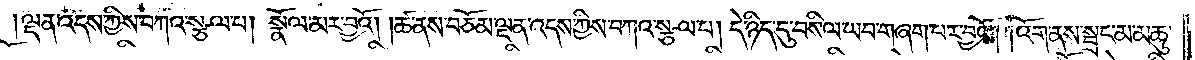ལྡན་འདས་ཀྱིས་བཀའ་སྩལ་པ། སྣོལ་མར་བྱའོ། །ཆ་ནས་བཅོམ་ལྡན་འདས་ཀྱིས་བཀའ་སྩལ་པ། དེ་ཉིད་དུ་བསིལ་ཡབ་གཞག་པར་བྱའོ། །འོག་ནས་སྦྲང་མ་མཆུ་
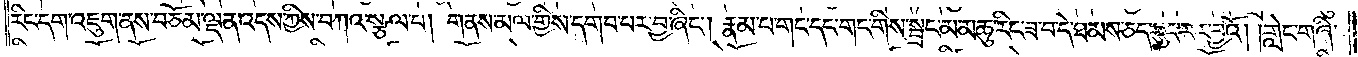རིང་དག་འཇུག་ནས་བཅོམ་ལྡན་འདས་ཀྱིས་བཀའ་སྩལ་པ། གནས་མལ་གྱིས་དགབ་པར་བྱ་ཞིང༌། རྣམ་པ་གང་དང་གང་གིས་སྦྲང་མ་མཆུ་རིང་ཟ་བ་དེ་ཐམས་ཅད་རུང་བར་བྱའོ། །གླེང་གཞི་
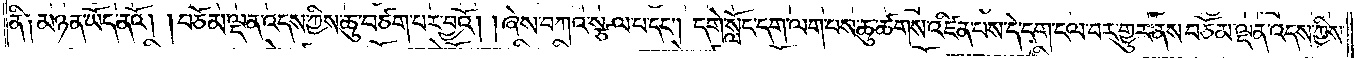ནི༑ མཉན་ཡོད་ནའོ། །བཅོམ་ལྡན་འདས་ཀྱིས་ཆུ་བཙག་པར་བྱའོ། །ཞེས་བཀའ་སྩལ་པ་དང༌། དགེ་སློང་དག་ལག་པས་ཆུ་ཚགས་འཛིན་པས་དེ་དག་ངལ་བར་གྱུར་ནས་བཅོམ་ལྡན་འདས་ཀྱིས་
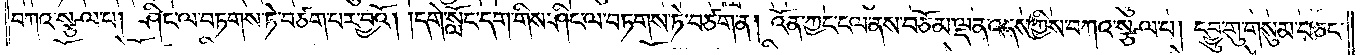བཀའ་སྩལ་པ། ཤིང་ལ་བཏགས་ཏེ་བཙག་པར་བྱའོ། །དགེ་སློང་དག་གིས་ཤིང་ལ་བཏགས་ཏེ་བཙག་ན། འོན་ཀྱང་ངལ་ནས་བཅོམ་ལྡན་འདས་ཀྱིས་བཀའ་སྩལ་པ། དབྱུ་གུ་གསུམ་བཅང་
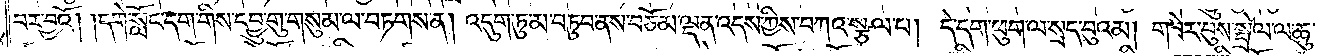བར་བྱའོ། །དགེ་སློང་དག་གིས་དབྱུ་གུ་གསུམ་ལ་བཏགས་ན། འདུག་ཏུ་མ་བཏུབ་ནས་བཅོམ་ལྡན་འདས་ཀྱིས་བཀའ་སྩལ་པ། དེ་དག་ཕུག་ལ་སྲད་བུའམ། གཟེར་བུས་སྦྲེལ་ལ་ཆུ་
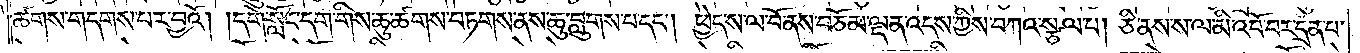ཚགས་གདགས་པར་བྱའོ། །དགེ་སློང་དག་གིས་ཆུ་ཚགས་བཏགས་ནས་ཆུ་བླུགས་པ་དང༌། ཕྱེད་ས་ལ་བོ་ནས་བཅོམ་ལྡན་འདས་ཀྱིས་བཀའ་སྩལ་པ། ཅི་ནས་ས་ལ་མི་འབོ་བར་དྲན་པ་
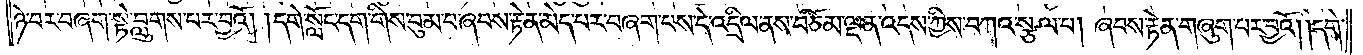ཉེ་བར་བཞག་སྟེ་བླུགས་པར་བྱའོ། །དགེ་སློང་དག་གིས་བུམ་པ་ཞབས་རྟེན་མེད་པར་བཞག་པས་དེ་འདྲིལ་ནས་བཅོམ་ལྡན་འདས་ཀྱིས་བཀའ་སྩལ་པ། ཞབས་རྟེན་གཞུག་པར་བྱའོ། །དགེ་
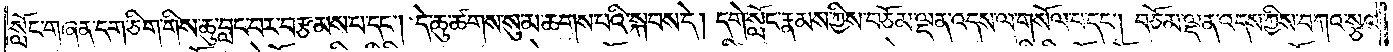སློང་གཞན་དག་ཅིག་གིས་ཆུ་བླང་བར་བརྩམས་པ་དང༌། དེ་ཆུ་ཚགས་སུ་མ་ཆགས་པའི་སྐབས་དེ། དགེ་སློང་རྣམས་ཀྱིས་བཅོམ་ལྡན་འདས་ལ་གསོལ་པ་དང༌། བཅོམ་ལྡན་འདས་ཀྱིས་བཀའ་སྩལ་
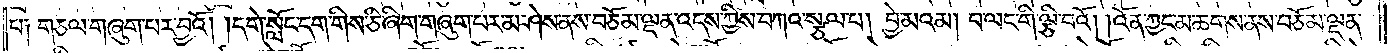པ༑ གཅལ་གཞུག་པར་བྱའོ། །དགེ་སློང་དག་གིས་ཅི་ཞིག་གཞུག་པར་མ་ཤེས་ནས་བཅོམ་ལྡན་འདས་ཀྱིས་བཀའ་སྩལ་པ། བྱེ་བའམ། བ་ལང་གི་ལྕི་བའོ། །འོན་ཀྱང་མ་ཆགས་ནས་བཅོམ་ལྡན་
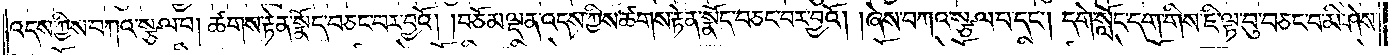འདས་ཀྱིས་བཀའ་སྩལ་པ། ཚགས་རྟེན་སྣོད་བཅང་བར་བྱའོ། །བཅོམ་ལྡན་འདས་ཀྱིས་ཚགས་རྟེན་སྣོད་བཅང་བར་བྱའོ། །ཞེས་བཀའ་སྩལ་པ་དང༌། དགེ་སློང་དག་གིས་ཇི་ལྟ་བུ་བཅང་བ་མི་ཤེས་
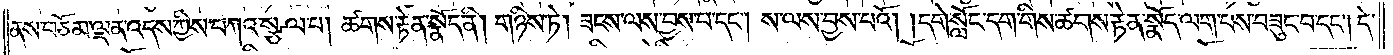ནས་བཅོམ་ལྡན་འདས་ཀྱིས་བཀའ་སྩལ་པ། ཚགས་རྟེན་སྣོད་ནི། གཉིས་ཏེ། ཟངས་ལས་བྱས་པ་དང༌། ས་ལས་བྱས་པའོ། །དགེ་སློང་དག་གིས་ཚགས་རྟེན་སྣོད་ལག་པས་བཟུང་བ་དང༌། དེ་
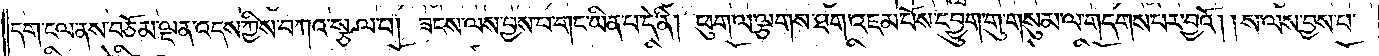དག་ངལ་ནས་བཅོམ་ལྡན་འདས་ཀྱིས་བཀའ་སྩལ་པ། ཟངས་ལས་བྱས་པ་གང་ཡིན་པ་དེ་ནི། ཕུག་ལ་ལྕགས་ཐག་འཇམ་པོས་དབྱུག་གུ་གསུམ་ལ་གདགས་པར་བྱའོ། །ས་ལས་བྱས་པ་
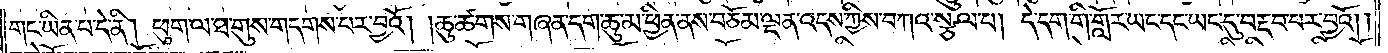གང་ཡིན་པ་དེ་ནི། ཕུག་ལ་ཐ་གུས་གདགས་པར་བྱའོ། །ཆུ་ཚགས་གཞན་དག་ཆུ་མ་ཕྱིན་ནས་བཅོམ་ལྡན་འདས་ཀྱིས་བཀའ་སྩལ་པ། དེ་དག་གི་གློར་ཡང་དང་ཡང་དུ་བརྡབ་པར་བྱའོ། །
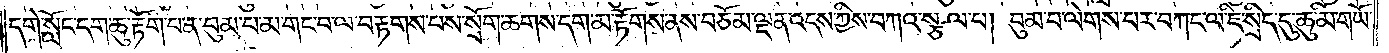དགེ་སློང་དག་ཆུ་རྟོག་པ་ན་བུམ་པ་མ་གང་བ་ལ་བརྟགས་པས་སྲོག་ཆགས་དག་མ་རྟོགས་ནས་བཅོམ་ལྡན་འདས་ཀྱིས་བཀའ་སྩལ་པ། བུམ་པ་ལེགས་པར་བཀང་ལ་ཇི་སྲིད་དུ་ཆུ་མི་གཡོ་
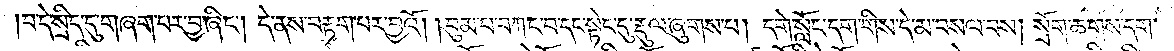བ་དེ་སྲིད་དུ་གཞག་པར་བྱ་ཞིང༌། དེ་ནས་བརྟག་པར་བྱའོ། །བུམ་པ་བཀང་བ་དང་སྟེང་དུ་རྡུལ་ཞུགས་པ། དགེ་སློང་དག་གིས་དེ་མ་བསལ་བས། སྲོག་ཆགས་དག་
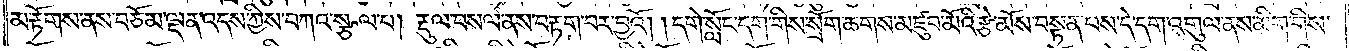མ་རྟོགས་ནས་བཅོམ་ལྡན་འདས་ཀྱིས་བཀའ་སྩལ་པ། རྡུལ་བསལ་ནས་བརྟག་པར་བྱའོ། །དགེ་སློང་དག་གིས་སྲོག་ཆགས་མཛུབ་མོའི་རྩེ་མོས་བསྟན་པས་དེ་དག་འགུལ་ནས་མིག་གིས་
